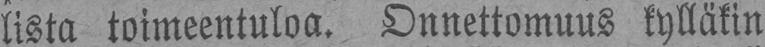lista toimeentuloa. Onnettomuus kylläkin
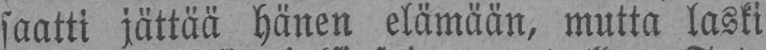saatti jättää hänen elämään, mutta laski
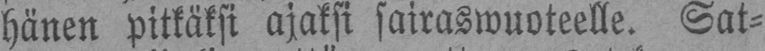hänen pitkäksi ajaksi sairaswuoteelle. Sat-
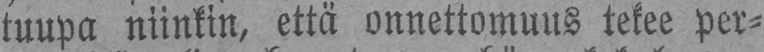tuupa niinkin, että onnettomuus tekee per-
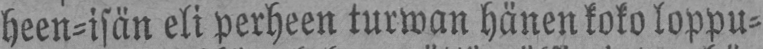heen-isän eli perheen turwan hänen koko loppu-
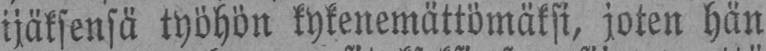ijäksensä työhön kykenemättömäksi, joten hän
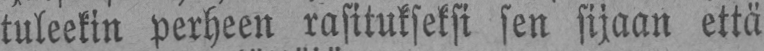tuleekin perheen rasitukseksi sen sijaan että
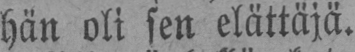hän oli sen elättäjä.
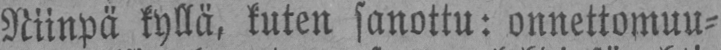Niinpä kyllä, kuten sanottu: onnettomuu-
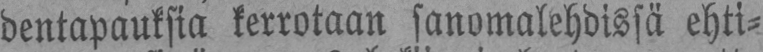dentapauksia kerrotaan sanomalehdissä ehti-
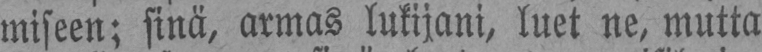miseen; sinä, armas lukijani, luet ne, mutta
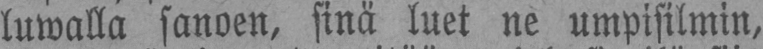luwalla sanoen, sinä luet ne umpisilmin,
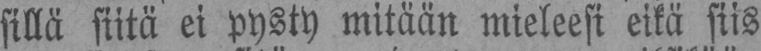sillä siitä ei pysty mitään mieleesi eikä siis
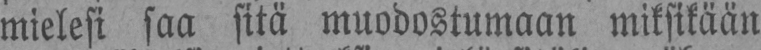mielesi saa sitä muodostumaan miksikään
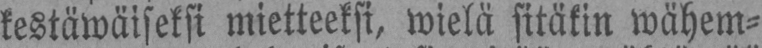kestäwäiseksi mietteeksi, wielä sitäkin wähem-
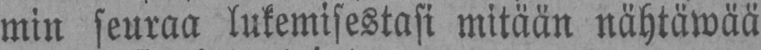min seuraa lukemisestasi mitään nähtäwää
